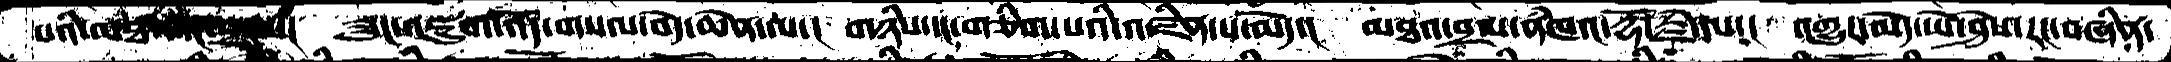པའི་མཐའ་དང་བྲལ་།  ཟུང་འཇུག་འོད་གསལ་བདེ་ཆེན་ལ་།  གཉིས་དང་གཅིག་པའི་འཛིན་པ་མེད་།  མཐའ་བྲལ་ནཾཁའ་རྡོ་རྗེ་ལ་།  འགྱུར་མེད་ཡེ་ཤེས་རང་བཞིན་
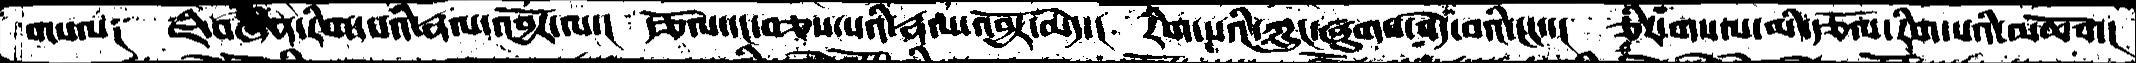གསལ༑  ཇི་བཞིན་རིག་པའི་རྣལ་འབྱོར་ལ་།  རྩོལ་དང་བཅས་པའི་རྣལ་འབྱོར་མེད་།  རིག་པའི་ཀླུང་ཞུགས་བདེ་བའི་ངང་་།  ཅིར་གསལ་མི་རྩོལ་རིག་པའི་མཆོག།
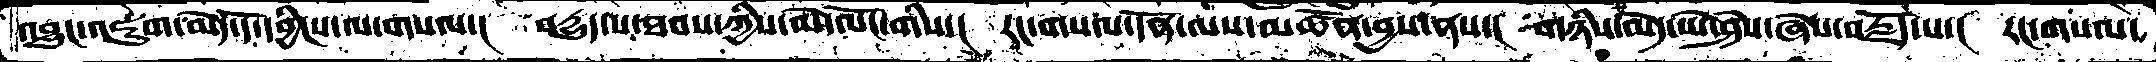འབྱུང་འཇུག་མེད་དོ་དབྱིངས་ལ་གསལ་།  བདྱུད་པ་ཐབས་ཀྱིས་མེ་ལོང་གིས་།  རང་གསལ་དོན་ལས་མཚོན་བྱས་ནས་།  གཉིས་མེད་ཡེ་ཤེས་ཞེས་བརྗོད་པ་།  རང་གསལ་
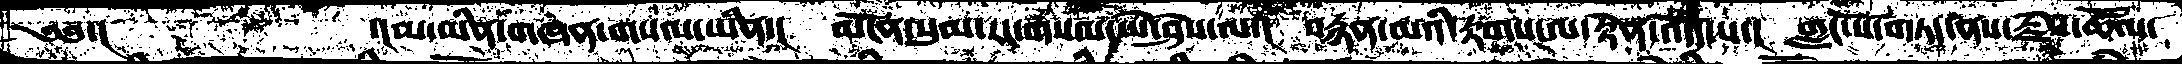༄༅་།        ་།མ་ཡིན་གཞན་གསལ་ཡིན་།  མངོན་སུམ་རང་གསལ་ཡེ་ཤེས་ལ་།  བརྙན་མའི་རྟགས་ལ་རྟེན་འདོད་པ་།  གླང་པོ་གཏད་ནས་རྗེས་ཚོལ་
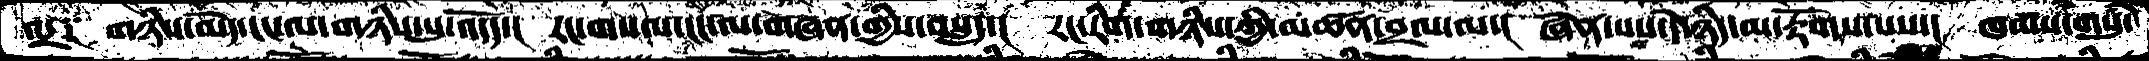འདྲ༑   གཉིས་མེད་ངང་ལ་གཉིས་སུ་འདོད་།  རང་གསལ་ངང་ལ་གཞན་གྱིས་བསླད་།  རང་རིག་གཉིས་ཀྱི་མཚན་བྲལ་ལ་།  ཞེན་པས་དེ་ཉིད་མ་རྟོག་པས་།  ཁམས་གསུཾ་
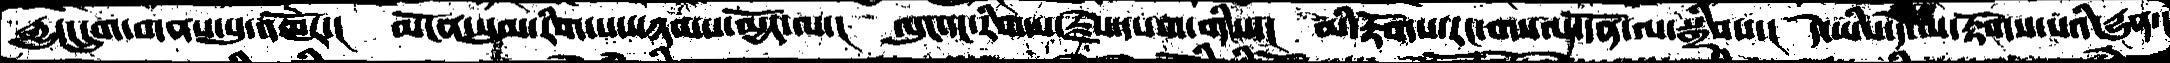རྒྱུད་དྲུག་གནས་སུ་འཁོར་།  མངོན་སུམ་རིག་པས་ཉམས་མྱོང་ལ་།  ལུང་དང་རིག་པ་རྗེས་དཔག་གིས་།  མི་རྟོགས་རང་གསལ་དོན་ལ་སྒྲིབས་།  དེ་ཡིས་དེ་ལ་རྟོགས་པའི་དྱུན་།
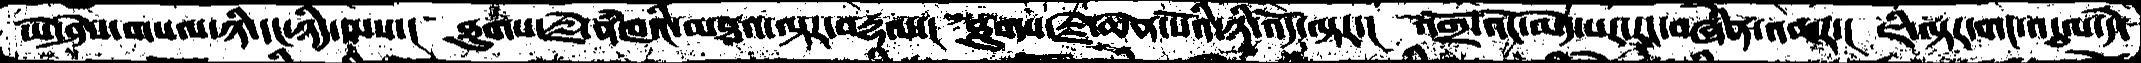ཡེ་ཤེས་གསལ་ཉི་ངང་ཉིད་ལས་།  ཐུགས་རྗེ་ནཾཁའི་མཐའ་ལྟར་བརྡལ་།  ཐུགས་རྗེ་ཆེན་པོའི་ཉི་འདོ་ལྟར་།  འགྲོ་འོང་མེད་པར་རང་བཞིན་འཆར་།  ཇི་ལྟར་གང་འདུལ་དེ་
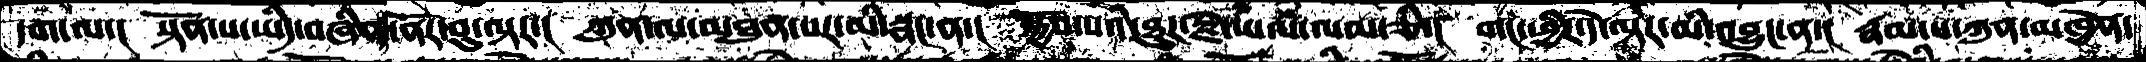དག་ལ་།  སྟོན་པ་ཡིད་བཞིན་ནོར་བུ་ལྟར་།  ཀུན་ལ་མཐུན་པར་མི་སྣང་ན་།  སྐྱོབ་པའི་ཐུཌ་རྗེ་ཡལ་ལམ་ཅི་།  གང་ཕྱིར་དེ་ལྟར་མི་འབྱུང་ན་།  རྣམ་པ་ཀུན་མཁྱེན་
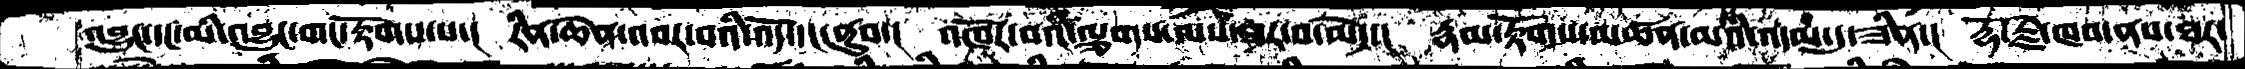འབྱུང་དང་མི་འབྱུང་གང་རྟོགས་པ་།  རིན་ཆེན་འབར་བའི་འོད་དང་ནུབ་།  འཁོར་བའི་ལྕགས་ལས་ཐར་བ་མེད་།  རྣམ་རྟོགས་མཚན་མའི་འདམ་དུ་ཟིན་།  རྡོ་རྗེ་ཁབ་ནས་ཐར་
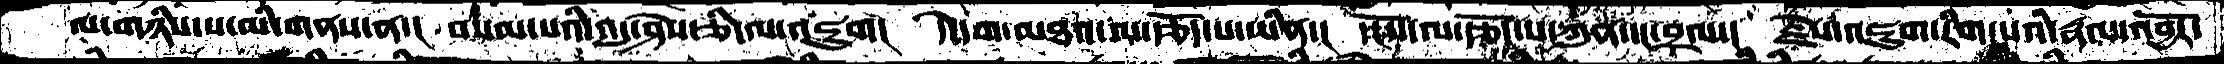ལ་གཉིས་པ་མི་གནས་ན་།  བསམ་པའི་འདུ་ཤེས་ཅི་ལ་འཇུག།  དེ་དག་མཐའ་ལ་་རྩོད་པ་ཡིན་།  དངོས་ལ་རྩོད་པ་ཀུན་དང་བྲལ་།  རྗེས་འཇུག་རིག་པའི་རྣལ་འབྱོར་
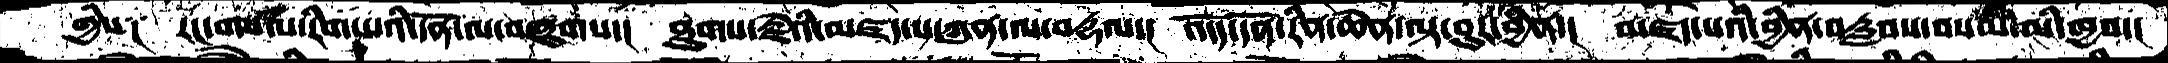གྱིས༑  རང་གསལ་རིག་པའི་དོན་ལ་བཞུགས་།  ཐུགས་རྗེའི་མཛད་པ་ཀུན་ལ་བརྡལ་།  འདོད་དོན་རིན་ཆེན་ལྟ་བུར་བྱིན་།  འཛད་པའི་བྱིན་བརླབས་བསམ་མི་ཁྱབ་།
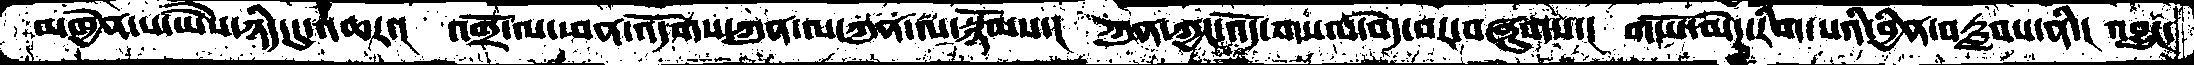མཁྱེན་པ་ཡཻས་ཉིད་དུ་འཆར་།  འགྲོ་ལ་ཕན་འདོགས་ཀུན་ལ་ཀུན་ལ་སྙོམས་།  ཀུན་ཀྱང་འདོ་གསལ་བདེ་བར་བཞུགས་།  གཡོ་མེད་རིག་པའི་བྱིན་བརླབས་ནི་།  འབྱུང་
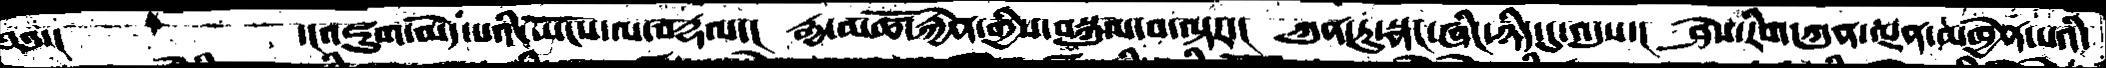༄༅་།         ་།འཇུག་མེད་པའི་ཡོངས་ལ་བརྡལ་།  རྒྱ་མཚོ་རྐྱེན་གྱིས་བསྐུལ་བ་ལྟར་།  ཀུན་ཏུ་སྣང་ཞིང་ཉིད་དུ་འདུས་།  ཤེས་རིག་ཀུན་ལྡན་མཁྱེན་པའི་
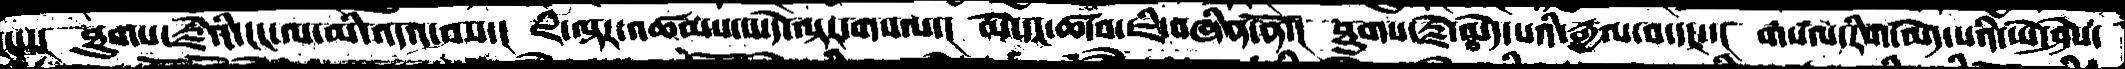ངང་་།  ཐུགས་་རྗེའི་ངང་ལ་མི་འདའ་བས་།  ཇི་ལྟར་འཚམས་པ་དེ་ལྟར་གསལ་།  མེ་དང་ཚ་བ་ཇི་བཞིན་ནོ་།  ཐུགས་རྗེ་མེད་པའི་རྒྱལ་བ་དང་་།  གསལ་རིག་མེད་པའི་ཡེ་ཤེས་
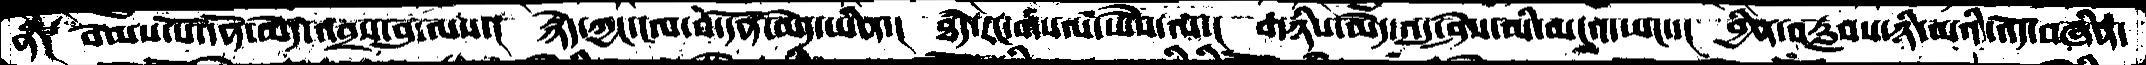ནི༑  བེམས་པོ་དོན་མེད་འབྲས་བུ་ལས་།  རྙེད་ཀྱང་ངལ་བ་དོན་མེད་ཡིན་།  ཐཾད་རང་གསལ་ཡཻས་ལ་།  གཉིས་མེད་འདུ་ཤེས་མི་མངའ་ཡང་་།  བྱིན་བརླབས་ཉི་མའི་འདོ་བཞིན་
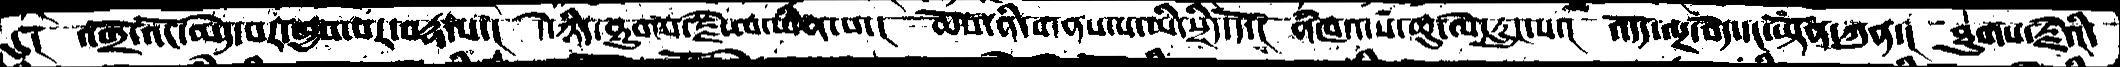དུ༑  འགྲོ་འོང་མེད་པར་ཁྱབ་པར་བརྡལ་།   དེ་ཉིད་ཐུགས་རྗེ་མ་་ཡིན་པ་།  ཆོས་ནི་གནས་པ་མི་སྲིད་དོ་།  ནཾཁའ་ས་ཆུ་མེ་རླུང་ས་།  འདོད་ལྔ་བདེ་དང་ཡྟོན་ཀུན་།  ཐུགས་རྗེའི་
